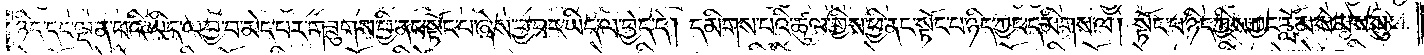ཉིད་དང་ལྡན་པའི་ཡིད་ལ་བྱ་བ་མེད་པར་གཟུགས་ཕྱི་ནང་སྟོང་པ་ཞེས་བྱ་བར་ཡིད་ལ་བྱེད་དེ། དམིགས་པའི་ཚུལ་གྱིས་ཕྱི་ནང་སྟོང་པ་ཉིད་ཀྱང་དམིགས་ལ། སྟོང་པ་ཉིད་ཀྱིས་ཀྱང་རློམ་སེམས་སུ་
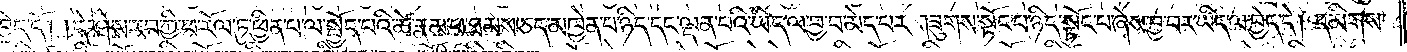བྱེད་དོ། །དེ་ཤེས་རབ་ཀྱི་ཕ་རོལ་ཏུ་ཕྱིན་པ་ལ་སྤྱོད་བའི་ཚེ་རྣམ་པ་ཐམས་ཅད་མཁྱེན་པ་ཉིད་དང་ལྡན་པའི་ཡིད་ལ་བྱ་བ་མེད་པར་གཟུགས་སྟོང་པ་ཉིད་སྟོང་པ་ཞེས་བྱ་བར་ཡིད་ལ་བྱེད་དེ། དམིགས་
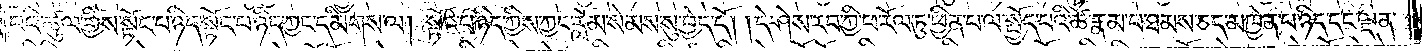པའི་ཚུལ་གྱིས་སྟོང་པ་ཉིད་སྟོང་པ་ཉིད་ཀྱང་དམིགས་ལ། སྟོང་པ་ཉིད་ཀྱིས་ཀྱང་རློམ་སེམས་སུ་བྱེད་དོ། །དེ་ཤེས་རབ་ཀྱི་ཕ་རོལ་ཏུ་ཕྱིན་པ་ལ་སྤྱོད་པའི་ཚེ་རྣམ་པ་ཐམས་ཅད་མཁྱེན་པ་ཉིད་དང་ལྡན་
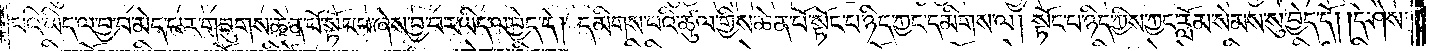པའི་ཡིད་ལ་བྱ་བ་མེད་པར་གཟུགས་ཆེན་པོ་སྟོང་པ་ཞེས་བྱ་བར་ཡིད་ལ་བྱེད་དེ། དམིགས་པའི་ཚུལ་གྱིས་ཆེན་པོ་སྟོང་པ་ཉིད་ཀྱང་དམིགས་ལ། སྟོང་པ་ཉིད་ཀྱིས་ཀྱང་རློམ་སེམས་སུ་བྱེད་དོ། །དེ་ཤེས་
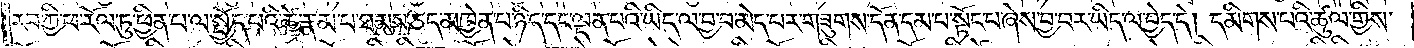རབ་ཀྱི་ཕ་རོལ་ཏུ་ཕྱིན་པ་ལ་སྤྱོད་པའི་ཚེ་རྣམ་པ་ཐམས་ཅད་མཁྱེན་པ་ཉིད་དང་ལྡན་པའི་ཡིད་ལ་བྱ་བ་མེད་པར་གཟུགས་དོན་དམ་པ་སྟོང་པ་ཞེས་བྱ་བར་ཡིད་ལ་བྱེད་དེ། དམིགས་པའི་ཚུལ་གྱིས་
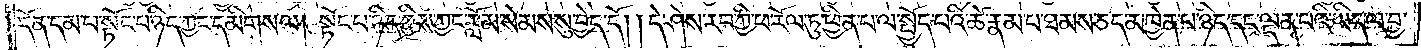དོན་དམ་པ་སྟོང་པ་ཉིད་ཀྱང་དམིགས་ལ། སྟོང་པ་ཉིད་ཀྱིས་ཀྱང་རློམ་སེམས་སུ་བྱེད་དོ། །དེ་ཤེས་རབ་ཀྱི་ཕ་རོལ་ཏུ་ཕྱིན་པ་ལ་སྤྱོད་པའི་ཚེ་རྣམ་པ་ཐམས་ཅད་མཁྱེན་པ་ཉིད་དང་ལྡན་པའི་ཡིད་ལ་བྱ་
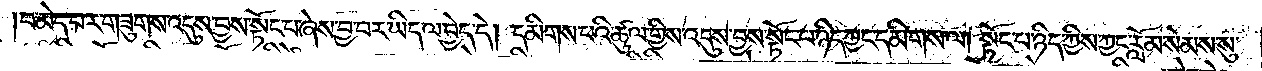བ་མེད་པར་གཟུགས་འདུས་བྱས་སྟོང་པ་ཞེས་བྱ་བར་ཡིད་ལ་བྱེད་དེ། དམིགས་པའི་ཚུལ་གྱིས་འདུས་བྱས་སྟོང་པ་ཉིད་ཀྱང་དམིགས་ལ། སྟོང་པ་ཉིད་ཀྱིས་ཀྱང་རློམ་སེམས་སུ་
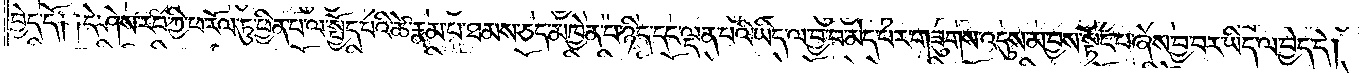བྱེད་དོ༑ ༑དེ་ཤེས་རབ་ཀྱི་ཕ་རོལ་ཏུ་ཕྱིན་པ་ལ་སྤྱོད་པའི་ཚེ་རྣམ་པ་ཐམས་ཅད་མཁྱེན་པ་ཉིད་དང་ལྡན་པའི་ཡིད་ལ་བྱ་བ་མེད་པར་གཟུགས་འདུས་མ་བྱས་སྟོང་པ་ཞེས་བྱ་བར་ཡིད་ལ་བྱེད་དེ།
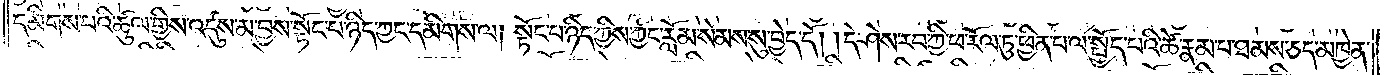དམིགས་པའི་ཚུལ་གྱིས་འདུས་མ་བྱས་སྟོང་པ་ཉིད་ཀྱང་དམིགས་ལ། སྟོང་པ་ཉིད་ཀྱིས་ཀྱང་རློམ་སེམས་སུ་བྱེད་དོ། །དེ་ཤེས་རབ་ཀྱི་ཕ་རོལ་ཏུ་ཕྱིན་པ་ལ་སྤྱོད་པའི་ཚེ་རྣམ་པ་ཐམས་ཅད་མཁྱེན་
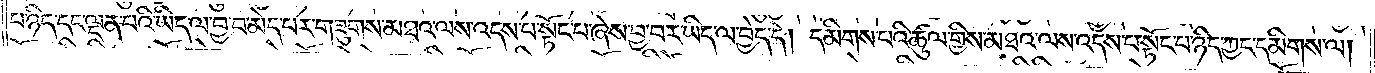པ་ཉིད་དང་ལྡན་པའི་ཡིད་ལ་བྱ་བ་མེད་པར་གཟུགས་མཐའ་ལས་འདས་པ་སྟོང་པ་ཞེས་བྱ་བར་ཡིད་ལ་བྱེད་དེ། དམིགས་པའི་ཚུལ་གྱིས་མཐའ་ལས་འདས་པ་སྟོང་པ་ཉིད་ཀྱང་དམིགས་ལ།
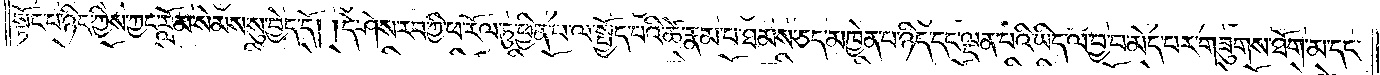སྟོང་པ་ཉིད་ཀྱིས་ཀྱང་རློམ་སེམས་སུ་བྱེད་དོ། །དེ་ཤེས་རབ་ཀྱི་ཕ་རོལ་ཏུ་ཕྱིན་པ་ལ་སྤྱོད་པའི་ཚེ་རྣམ་པ་ཐམས་ཅད་མཁྱེན་པ་ཉིད་དང་ལྡན་པའི་ཡིད་ལ་བྱ་བ་མེད་པར་གཟུགས་ཐོག་མ་དང་
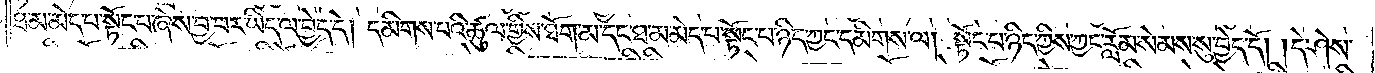ཐ་མ་མེད་པ་སྟོང་པ་ཞེས་བྱ་བར་ཡིད་ལ་བྱེད་དེ། དམིགས་པའི་ཚུལ་གྱིས་ཐོག་མ་དང་ཐ་མ་མེད་པ་སྟོང་པ་ཉིད་ཀྱང་དམིགས་ལ། སྟོང་པ་ཉིད་ཀྱིས་ཀྱང་རློམ་སེམས་སུ་བྱེད་དོ། །དེ་ཤེས་
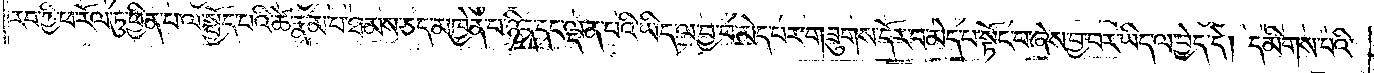རབ་ཀྱི་ཕ་རོལ་ཏུ་ཕྱིན་པ་ལ་སྤྱོད་པའི་ཚེ་རྣམ་པ་ཐམས་ཅད་མཁྱེན་པ་ཉིད་དང་ལྡན་པའི་ཡིད་ལ་བྱ་བ་མེད་པར་གཟུགས་དོར་བ་མེད་པ་སྟོང་པ་ཞེས་བྱ་བར་ཡིད་ལ་བྱེད་དེ། དམིགས་པའི་
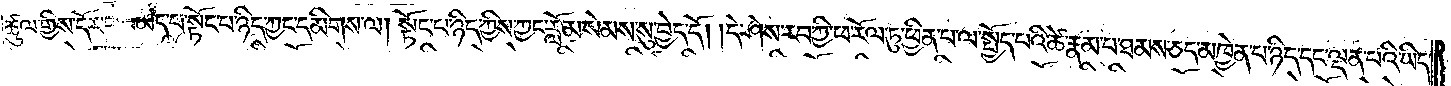ཚུལ་གྱིས་དོར་བ་མེད་པ་སྟོང་པ་ཉིད་ཀྱང་དམིགས་ལ། སྟོང་པ་ཉིད་ཀྱིས་ཀྱང་རློམ་སེམས་སུ་བྱེད་དོ། །དེ་ཤེས་རབ་ཀྱི་ཕ་རོལ་ཏུ་ཕྱིན་པ་ལ་སྤྱོད་པའི་ཚེ་རྣམ་པ་ཐམས་ཅད་མཁྱེན་པ་ཉིད་དང་ལྡན་པའི་ཡིད་
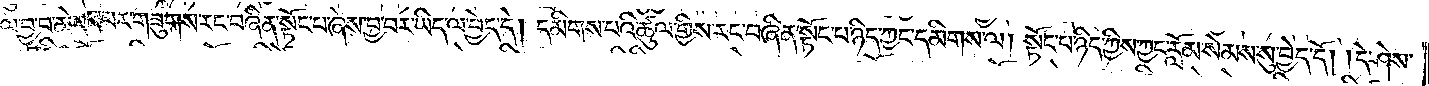ལ་བྱ་བ་མེད་པར་གཟུགས་རང་བཞིན་སྟོང་པ་ཞེས་བྱ་བར་ཡིད་ལ་བྱེད་དེ། དམིགས་པའི་ཚུལ་གྱིས་རང་བཞིན་སྟོང་པ་ཉིད་ཀྱང་དམིགས་ལ། སྟོང་པ་ཉིད་ཀྱིས་ཀྱང་རློམ་སེམས་སུ་བྱེད་དོ། །དེ་ཤེས་
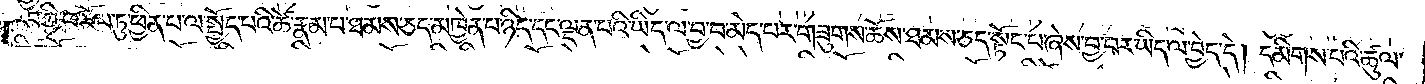རབ་ཀྱི་ཕ་རོལ་ཏུ་ཕྱིན་པ་ལ་སྤྱོད་པའི་ཚེ་རྣམ་པ་ཐམས་ཅད་མཁྱེན་པ་ཉིད་དང་ལྡན་པའི་ཡིད་ལ་བྱ་བ་མེད་པར་གཟུགས་ཆོས་ཐམས་ཅད་སྟོང་པ་ཞེས་བྱ་བར་ཡིད་ལ་བྱེད་དེ། དམིགས་པའི་ཚུལ་
